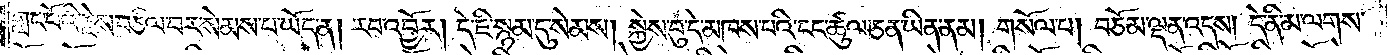གླང་པོའི་རྗེས་བཅལ་བར་སེམས་པ་ཡོད་ན། རབ་འབྱོར། དེ་ཇི་སྙམ་དུ་སེམས། སྐྱེས་བུ་དེ་མཁས་པའི་ངང་ཚུལ་ཅན་ཡིན་ནམ། གསོལ་པ། བཅོམ་ལྡན་འདས། དེ་ནི་མ་ལགས་
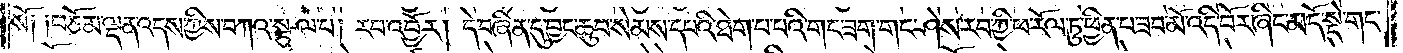སོ༑ ༑བཅོམ་ལྡན་འདས་ཀྱིས་བཀའ་སྩལ་པ། རབ་འབྱོར། དེ་བཞིན་དུ་བྱང་ཆུབ་སེམས་དཔའི་ཐེག་པ་པའི་གང་ཟག་གང་ཤེས་རབ་ཀྱི་ཕ་རོལ་ཏུ་ཕྱིན་པ་ཟབ་མོ་འདི་བོར་ཞིང་མདོ་སྡེ་གང་
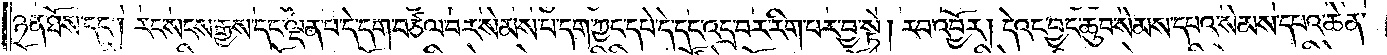ཉན་ཐོས་དང༌། རང་སངས་རྒྱས་དང་ལྡན་པ་དེ་དག་བཙལ་བར་སེམས་པ་དག་ཀྱང་དཔེ་དེ་དང་འདྲ་བར་རིག་པར་བྱ་སྟེ། རབ་འབྱོར། དེའང་བྱང་ཆུབ་སེམས་དཔའ་སེམས་དཔའ་ཆེན་
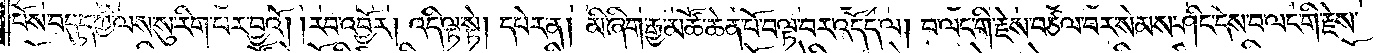པོས་བདུད་ཀྱི་ལས་སུ་རིག་པར་བྱའོ། །རབ་འབྱོར། འདི་ལྟ་སྟེ། དཔེར་ན། མི་ཞིག་རྒྱ་མཚོ་ཆེན་པོ་བལྟ་བར་འདོད་ལ། བ་ལང་གི་རྗེས་བཙལ་བར་སེམས་ཤིང་དེས་བ་ལག་གི་རྗེས་
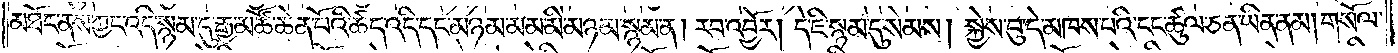མཐོང་ནས་ཀྱང་འདི་སྙམ་དུ་རྒྱ་མཚོ་ཆེན་པོའི་ཚད་འདི་དང་མཉམ་མམ་མི་མཉམ་སྙམ་ན། རབ་འབྱོར། དེ་ཇི་སྙམ་དུ་སེམས། སྐྱེས་བུ་དེ་མཁས་པའི་ངང་ཚུལ་ཅན་ཡིན་ནམ། གསོལ་
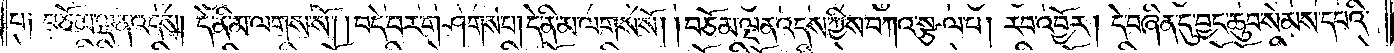པ༑ བཅོམ་ལྡན་འདས། དེ་ནི་མ་ལགས་སོ། །བདེ་བར་གཤེགས་པ་དེ་ནི་མ་ལགས་སོ། །བཅོམ་ལྡན་འདས་ཀྱིས་བཀའ་སྩལ་པ། རབ་འབྱོར། དེ་བཞིན་དུ་བྱང་ཆུབ་སེམས་དཔའི་
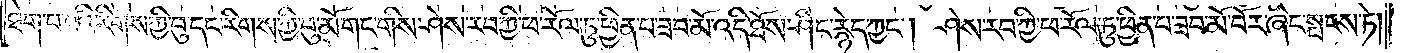ཐེག་པ་པའི་རིགས་ཀྱི་བུ་དང་རིགས་ཀྱི་བུ་མོ་གང་གིས་ཤེས་རབ་ཀྱི་ཕ་རོལ་ཏུ་ཕྱིན་པ་ཟབ་མོ་འདི་ཐོས་ཤིང་རྙེད་ཀྱང༌། ཤེས་རབ་ཀྱི་ཕ་རོལ་ཏུ་ཕྱིན་པ་ཟབ་མོ་བོར་ཞིང་སྤངས་ཏེ།
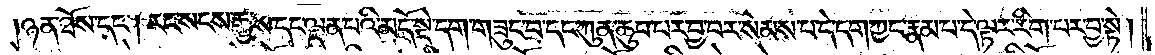ཉན་ཐོས་དང༌། རང་སངས་རྒྱས་དང་ལྡན་པའི་མདོ་སྡེ་དག་གཟུང་བ་དང་ཀུན་ཆུབ་པར་བྱ་བར་སེམས་པ་དེ་དག་ཀྱང་རྣམ་པ་དེ་ལྟར་རིག་པར་བྱ་སྟེ།
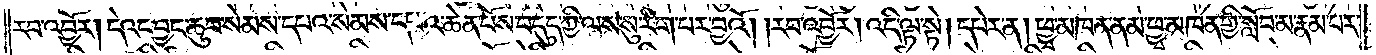རབ་འབྱོར། དེའང་བྱང་ཆུབ་སེམས་དཔའ་སེམས་དཔའ་ཆེན་པོས་བདུད་ཀྱི་ལས་སུ་རིག་པར་བྱའོ། །རབ་འབྱོར། འདི་ལྟ་སྟེ། དཔེར་ན། ཕྱ་མཁན་ནམ་ཕྱ་མཁན་གྱི་སློབ་མ་རྣམ་པར་
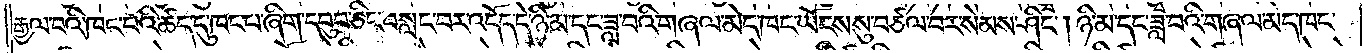རྒྱལ་བའི་ཁང་པའི་ཚད་དུ་ཁང་པ་ཞིག་དབུབ་ཅིང་བསླང་བར་འདོད་དེ་ཉི་མ་དང་ཟླ་བའི་གཞལ་མེད་ཁང་ཡོངས་སུ་བཙལ་བར་སེམས་ཤིང༌། ཉི་མ་དང་ཟླ་བའི་གཞལ་མེད་ཁང་
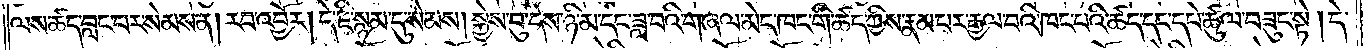ལས་ཚད་བླང་བར་སེམས་ན། རབ་འབྱོར། དེ་ཇི་སྙམ་དུ་སེམས། སྐྱེས་བུ་དེས་ཉི་མ་དང་ཟླ་བའི་གཞལ་མེད་ཁང་གི་ཚད་ཀྱིས་རྣམ་པར་རྒྱལ་བའི་ཁང་པའི་ཚད་དང་དཔེ་ཚུལ་བཟུང་སྟེ། དེ་
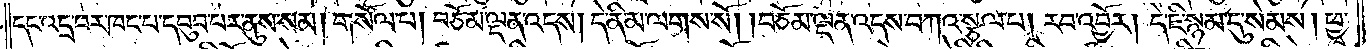དང་འདྲ་བར་ཁང་པ་དབུབ་པར་ནུས་སམ། གསོལ་པ། བཅོམ་ལྡན་འདས། དེ་ནི་མ་ལགས་སོ། །བཅོམ་ལྡན་འདས་ཀྱིས་བཀའ་སྩལ་པ། རབ་འབྱོར། དེ་ཇི་སྙམ་དུ་སེམས། ཕྱྭ་
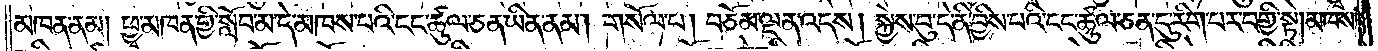མཁན་ནམ། ཕྱྭ་མཁན་གྱི་སློབ་མ་དེ་མཁས་པའི་ངང་ཚུལ་ཅན་ཡིན་ནམ། གསོལ་པ། བཅོམ་ལྡན་འདས། སྐྱེས་བུ་དེ་ནི་བྱིས་པའི་ངང་ཚུལ་ཅན་དུ་རིག་པར་བགྱི་སྟེ། མཁས་
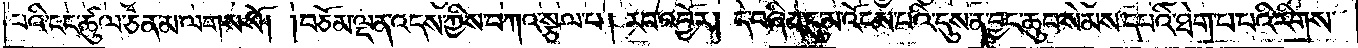པའི་ངང་ཚུལ་ཅན་མ་ལགས་སོ། །བཅོམ་ལྡན་འདས་ཀྱིས་བཀའ་སྩལ་པ། རབ་འབྱོར། དེ་བཞིན་དུ་མ་འོངས་པའི་དུས་ན་བྱང་ཆུབ་སེམས་དཔའི་ཐེག་པ་པའི་རིགས་
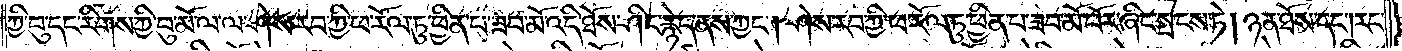ཀྱི་བུ་དང་རིགས་ཀྱི་བུ་མོ་ལ་ལ་ཤེས་རབ་ཀྱི་ཕ་རོལ་ཏུ་ཕྱིན་པ་ཟབ་མོ་འདི་ཐོས་ཤིང་རྙེད་ནས་ཀྱང༌། ཤེས་རབ་ཀྱི་ཕ་རོལ་ཏུ་ཕྱིན་པ་ཟབ་མོ་བོར་ཞིང་སྤངས་ཏེ། ཉན་ཐོས་དང༌། རང་
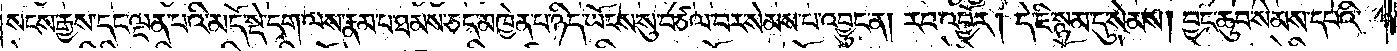སངས་རྒྱས་དང་ལྡན་པའི་མདོ་སྡེ་དག་ལས་རྣམ་པ་ཐམས་ཅད་མཁྱེན་པ་ཉིད་ཡོངས་སུ་བཙལ་བར་སེམས་པ་འབྱུང་ན། རབ་འབྱོར། དེ་ཇི་སྙམ་དུ་སེམས། བྱང་ཆུབ་སེམས་དཔའི་
